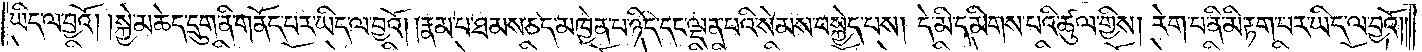ཡིད་ལ་བྱའོ། །སྐྱེ་མཆེད་དྲུག་ནི་གནོད་པར་ཡིད་ལ་བྱའོ། །རྣམ་པ་ཐམས་ཅད་མཁྱེན་པ་ཉིད་དང་ལྡན་པའི་སེམས་བསྐྱེད་པས། དེ་མི་དམིགས་པའི་ཚུལ་གྱིས། རེག་པ་ནི་མི་རྟག་པར་ཡིད་ལ་བྱའོ། །
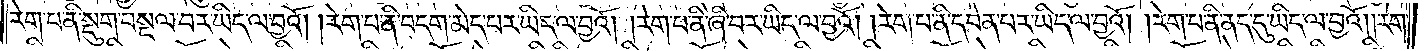རེག་པ་ནི་སྡུག་བསྔལ་བར་ཡིད་ལ་བྱའོ། །རེག་པ་ནི་བདག་མེད་པར་ཡིད་ལ་བྱའོ། །རེག་པ་ནི་ཞི་བར་ཡིད་ལ་བྱའོ། །རེག་པ་ནི་དབེན་པར་ཡིད་ལ་བྱའོ། །རེག་པ་ནི་ནད་དུ་ཡིད་ལ་བྱའོ། །རེག་
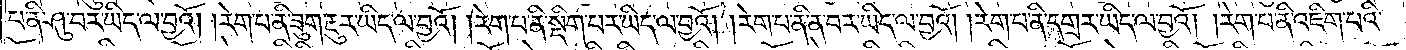པ་ནི་ཤུ་བར་ཡིད་ལ་བྱའོ། །རེག་པ་ནི་ཟུག་རྔུར་ཡིད་ལ་བྱའོ། །རེག་པ་ནི་སྡིག་པར་ཡིད་ལ་བྱའོ། །རེག་པ་ནི་ན་བར་ཡིད་ལ་བྱའོ། །རེག་པ་ནི་དགྲར་ཡིད་ལ་བྱའོ། །རེག་པ་ནི་འཇིག་པའི་
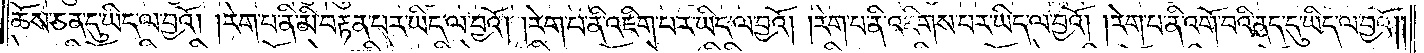ཆོས་ཅན་དུ་ཡིད་ལ་བྱའོ། །རེག་པ་ནི་མི་བརྟན་པར་ཡིད་ལ་བྱའོ། །རེག་པ་ནི་འཇིག་པར་ཡིད་ལ་བྱའོ། །རེག་པ་ནི་འཇིགས་པར་ཡིད་ལ་བྱའོ། །རེག་པ་ནི་འགོ་བའི་ནད་དུ་ཡིད་ལ་བྱའོ། །
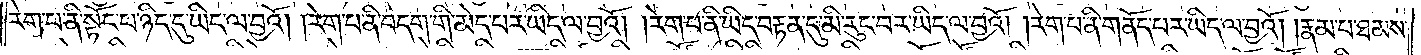རེག་པ་ནི་སྟོང་པ་ཉིད་དུ་ཡིད་ལ་བྱའོ། །རེག་པ་ནི་བདག་གི་མེད་པར་ཡིད་ལ་བྱའོ། །རེག་པ་ནི་ཡིད་བརྟན་དུ་མི་རུང་བར་ཡིད་ལ་བྱའོ། །རེག་པ་ནི་གནོད་པར་ཡིད་ལ་བྱའོ། །རྣམ་པ་ཐམས་
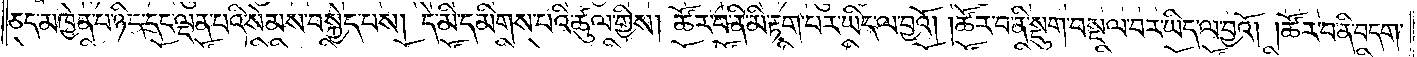ཅད་མཁྱེན་པ་ཉིད་དང་ལྡན་པའི་སེམས་བསྐྱེད་པས། དེ་མི་དམིགས་པའི་ཚུལ་གྱིས། ཚོར་བ་ནི་མི་རྟག་པར་ཡིད་ལ་བྱའོ། །ཚོར་བ་ནི་སྡུག་བསྔལ་བར་ཡིད་ལ་བྱའོ། །ཚོར་བ་ནི་བདག་
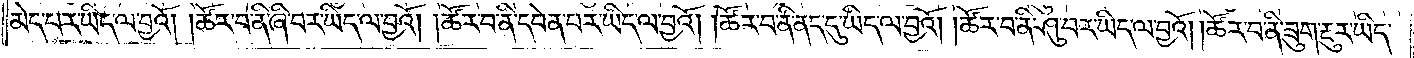མེད་པར་ཡིད་ལ་བྱའོ། །ཚོར་བ་ནི་ཞི་བར་ཡིད་ལ་བྱའོ། །ཚོར་བ་ནི་དབེན་པར་ཡིད་ལ་བྱའོ། །ཚོར་བ་ནི་ནད་དུ་ཡིད་ལ་བྱའོ། །ཚོར་བ་ནི་ཤུ་བར་ཡིད་ལ་བྱའོ། །ཚོར་བ་ནི་ཟུག་རྔུར་ཡིད་
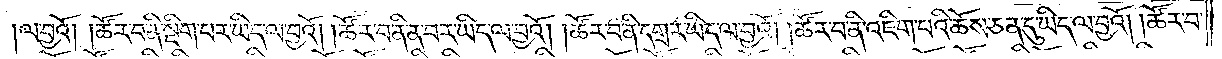ལ་བྱའོ། །ཚོར་བ་ནི་སྡིག་པར་ཡིད་ལ་བྱའོ། །ཚོར་བ་ནི་ན་བར་ཡིད་ལ་བྱའོ། །ཚོར་བ་ནི་དགྲར་ཡིད་ལ་བྱའོ། །ཚོར་བ་ནི་འཇིག་པའི་ཆོས་ཅན་དུ་ཡིད་ལ་བྱའོ། །ཚོར་
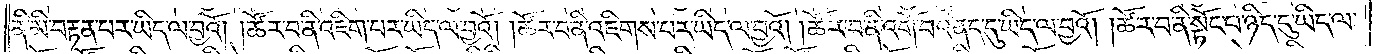བ་ནི་མི་བརྟན་པར་ཡིད་ལ་བྱའོ། །ཚོར་བ་ནི་འཇིག་པར་ཡིད་ལ་བྱའོ། །ཚོར་བ་ནི་འཇིགས་པར་ཡིད་ལ་བྱའོ། །ཚོར་བ་ནི་འགོ་བའི་ནད་དུ་ཡིད་ལ་བྱའོ། །ཚོར་བ་ནི་སྟོང་པ་ཉིད་དུ་ཡིད་ལ་
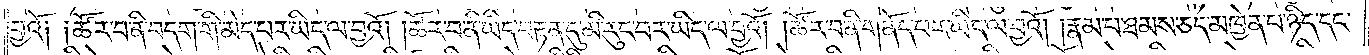བྱའོ༏ ༏ཚོར་བ་ནི་བདག་གི་མེད་པར་ཡིད་ལ་བྱའོ། །ཚོར་བ་ནི་ཡིད་བརྟན་དུ་མི་རུང་བར་ཡིད་ལ་བྱའོ། །ཚོར་བ་ནི་གནོད་པར་ཡིད་ལ་བྱའོ། །རྣམ་པ་ཐམས་ཅད་མཁྱེན་པ་ཉིད་དང་
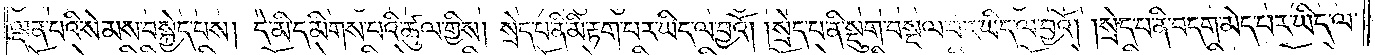ལྡན་པའི་སེམས་བསྐྱེད་པས། དེ་མི་དམིགས་པའི་ཚུལ་གྱིས། སྲེད་པ་ནི་མི་རྟག་པར་ཡིད་ལ་བྱའོ། །སྲེད་པ་ནི་སྡུག་བསྔལ་བར་ཡིད་ལ་བྱའོ། །སྲེད་པ་ནི་བདག་མེད་པར་ཡིད་ལ་
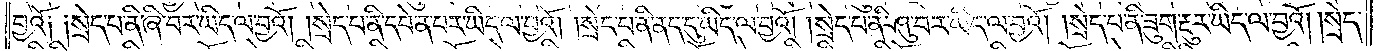བྱའོ༏ ༏སྲེད་པ་ནི་ཞི་བར་ཡིད་ལ་བྱའོ། །སྲེད་པ་ནི་དབེན་པར་ཡིད་ལ་བྱའོ། །སྲེད་པ་ནི་ནད་དུ་ཡིད་ལ་བྱའོ། །སྲེད་པ་ནི་ཤུ་བར་ཡིད་ལ་བྱའོ། །སྲེད་པ་ནི་ཟུག་རྔུར་ཡིད་ལ་བྱའོ། །སྲེད་
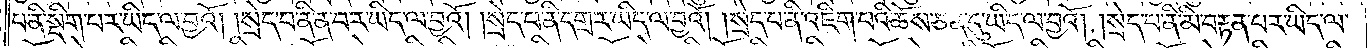པ་ནི་སྡིག་པར་ཡིད་ལ་བྱའོ། །སྲེད་པ་ནི་ན་བར་ཡིད་ལ་བྱའོ། །སྲེད་པ་ནི་དགྲར་ཡིད་ལ་བྱའོ། །སྲེད་པ་ནི་འཇིག་པའི་ཆོས་ཅན་དུ་ཡིད་ལ་བྱའོ། །སྲེད་པ་ནི་མི་བརྟན་པར་ཡིད་ལ་
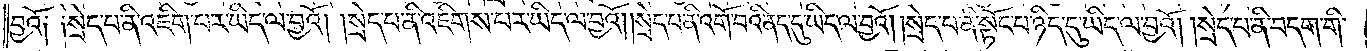བྱའོ༏ ༏སྲེད་པ་ནི་འཇིག་པར་ཡིད་ལ་བྱའོ། །སྲེད་པ་ནི་འཇིགས་པར་ཡིད་ལ་བྱའོ། །སྲེད་པ་ནི་འགོ་བའི་ནད་དུ་ཡིད་ལ་བྱའོ། །སྲེད་པ་ནི་སྟོང་པ་ཉིད་དུ་ཡིད་ལ་བྱའོ། །སྲེད་པ་ནི་བདག་གི་
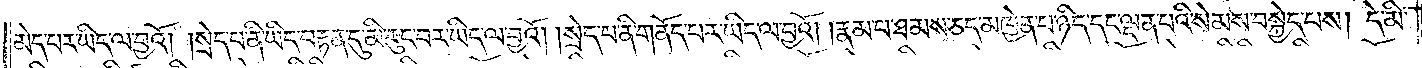མེད་པར་ཡིད་ལ་བྱའོ། །སྲེད་པ་ནི་ཡིད་བརྟན་དུ་མི་རུང་བར་ཡིད་ལ་བྱའོ། །སྲེད་པ་ནི་གནོད་པར་ཡིད་ལ་བྱའོ། །རྣམ་པ་ཐམས་ཅད་མཁྱེན་པ་ཉིད་དང་ལྡན་པའི་སེམས་བསྐྱེད་པས། དེ་མི་
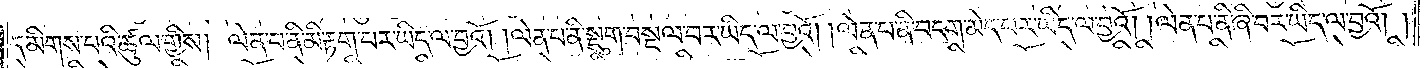དམིགས་པའི་ཚུལ་གྱིས། ལེན་པ་ནི་མི་རྟག་པར་ཡིད་ལ་བྱའོ། །ལེན་པ་ནི་སྡུག་བསྔལ་བར་ཡིད་ལ་བྱའོ། །ལེན་པ་ནི་བདག་མེད་པར་ཡིད་ལ་བྱའོ། །ལེན་པ་ནི་ཞི་བར་ཡིད་ལ་བྱའོ། །
